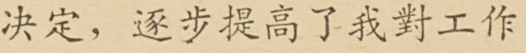決定，逐步提高了我對工作
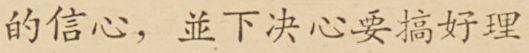的信心，並下決心要搞好理
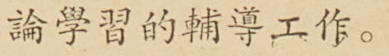論學習的輔導工作。
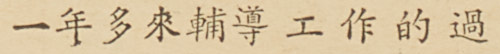一年多來輔導工作的過
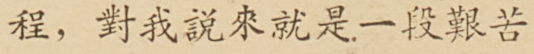程，對我說來就是一段艱苦
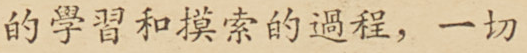的學習和摸索的過程，一切
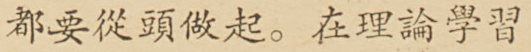都要從頭做起。在理論學習
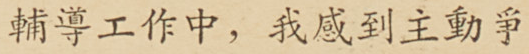輔導工作中，我感到主動爭
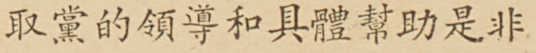取黨的領導和具體幫助是非
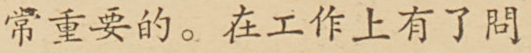常重要的。在工作上有了問
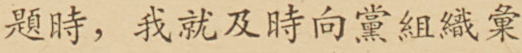題時，我就及時向黨組織彙
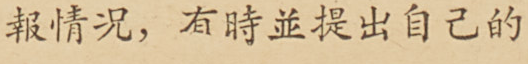報情況，有時並提出自己的
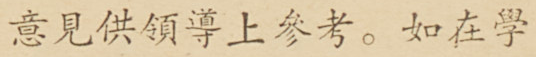意見供領導上參考。如在學
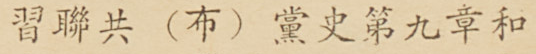習聯共（布）黨史第九章和
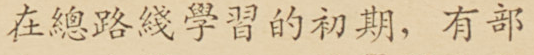在總路綫學習的初期，有部
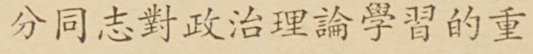分同志對政治理論學習的重
